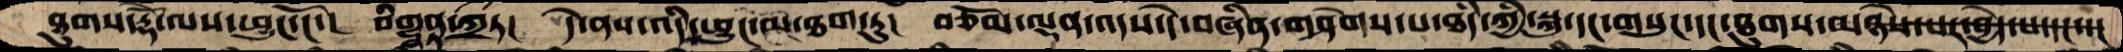ཐུགས་རྡོེ་ལས་ཕྱུང་ངོ་།  བིགྷནྟ་ཀྲྀཏ།  དེ་ནས་འདི་ཕྱུང་མ་ཐག་ཏུ།  བཅོམ་ལྡན་འདས་དེ་བཞིན་གཤེགས་པ་ཐཾད་ཀྱི་སྐུ་དང་གསུང་དང་ཐུགས་མཉེས་པར་བྱེད་པ་དང་་།
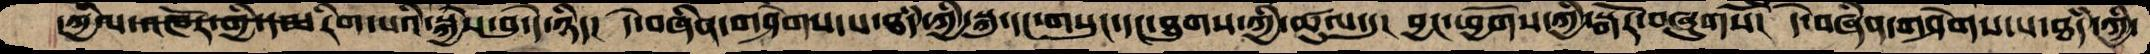དཀྱིལ་འཁོར་གྱི་དམརིག་པའི་སྐྱེས་བུ་དེ་ཉིད།  དེ་བཞིན་གཤེགས་པ་ཐཾད་ཀྱི་སྐུ་དང་གསུང་དང་ཐུགས་ཀྱི་ཚུལ་དུ།  བྱང་ཕྱོགས་ཀྱི་སྒོར་བཞུགསོ་།  དེ་བཞིན་གཤེགས་པ་ཐཾད་ཀྱི་
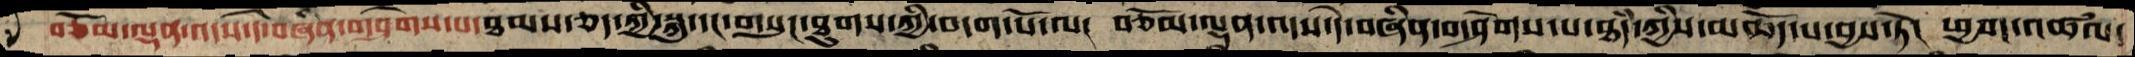བཅོམ་ལྡན་འདས་དེ་བཞིན་གཤེགས་པ་ཐམས་ཅད་ཀྱི་སྐུ་དང་གསུང་ཐུགས་ཀྱི་བདག་པོལ།  བཅོམ་ལྡན་འདས་དེ་བཞིན་གཤེགས་པ་ཐཾད་ཀྱིས་མཆོད་པ་བྱས་ཏེ་།  ཕྱག་འཚལ་
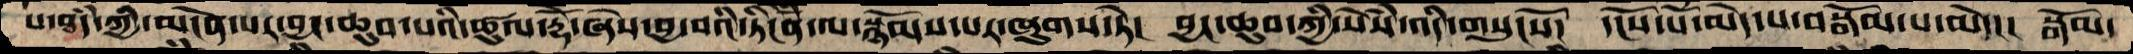པ་ཐཾད་ཀྱི་མངོན་པར་བྱང་ཆུབ་པའི་ཚུལ་རྡོེ་ཞེས་བྱ་བའི་ཏིངེཛིན་ལ་སྙོམས་པར་ཞུགས་ཏེ་།  བྱང་ཆུབ་ཀྱི་སེཾས་འདི་གསུངསོ།  དངོས་པོ་མེད་པ་བསྒོམ་པ་མེད་།  སྒོམ་
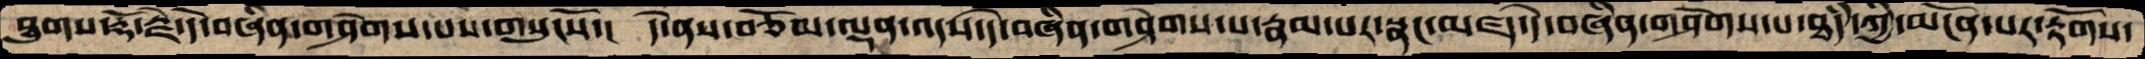ཐུགས་རྡོ་རྗེ་དེ་བཞིན་གཤེགས་པས་གསུངསོ་།  དེ་ནས་བཅོམ་ལྡན་འདས་དེ་བཞིན་གཤེགས་པ་རྣམ་པར་སྣང་མཛད་དེ་བཞིན་གཤེགས་པ་ཐཾད་ཀྱི་མངོན་པར་རྟོགས་
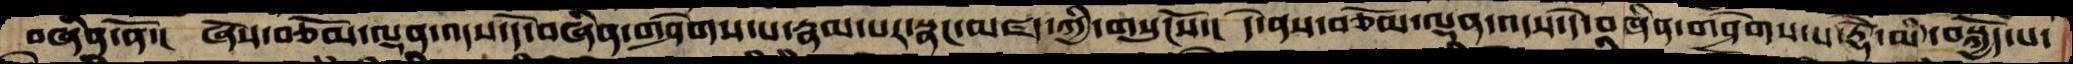བཞིན་ནོ་།  ཞེས་བཅོམ་ལྡན་འདས་དེ་བཞིན་གཤེགས་པ་རྣམ་པར་སྣང་མཛད་ཀྱི་གསུངསོ་།  དེ་ནས་བཅོམ་ལྡན་འདས་དེ་བཞིན་གཤེགས་པ་རྡོེ་མི་བསྐྱོད་པ་
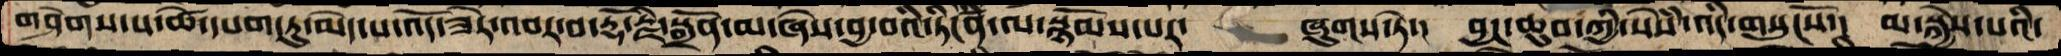གཤེགས་པ་ཚེ་དཔག་ཏུ་མེད་པ་འདོ་ཟེར་འབར་བ་རྡོ་རྗེ་སྒྲོན་མ་ཞེས་བྱ་བའི་ཏིངཛིན་ལ་སྙོམས་པར་   ཞུགས་ཏེ་།  བྱང་ཆུབ་ཀྱི་སེཾས་འདི་གསུངསོ་།  མ་སྐྱེས་པའི་
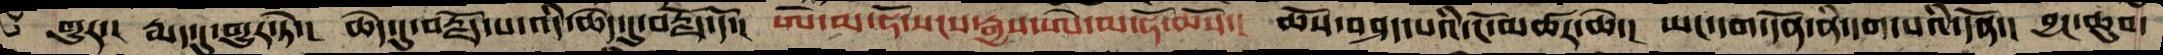གྱུར་། རྨད་དུ་གྱུར་ཏེ་། ཆེད་དུ་བརྗོད་པ་འདི་ཆེད་དུ་བརྗོད་དོ་། ཨེ་མ་ཧོ་སངས་རྒྱས་ཨེ་མ་ཧོ་ཆོས་། ཆོས་བཤད་པའི་ངོ་མཚར་ཆེ་། ཡང་དག་དོན་ནི་དག་པའི་དོན་། བྱང་ཆུབ་
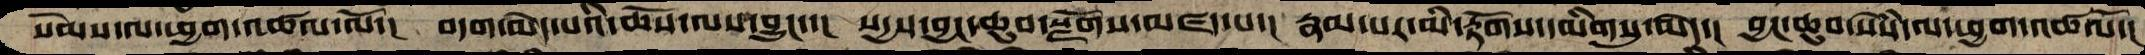སེམས་ལ་ཕྱག་འཚལ་ལོ་།  བདག་མེད་པའི་ཆོས་ལས་བྱུང་་།  སདྱས་བྱང་ཆུབ་སྫོགས་མཛད་པ་།  རྣམ་པར་མི་རྟོགས་དམིགསུ་མེད་།  བྱང་ཆུབ་སེཾས་ལ་ཕྱག་འཚལོ་།
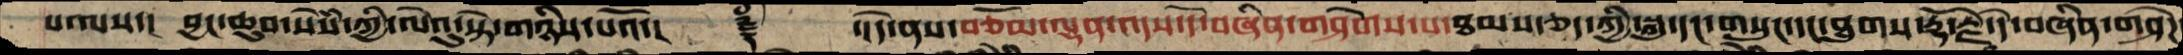པ་ལས་། བྱང་ཆུབ་སེཾས་ཀྱི་ལེའུ་སྟེ་གཉིས་པའོ་།   ༈  ་།དེ་ནས་བཅོམ་ལྡན་འདས་དེ་བཞིན་གཤེགས་པ་ཐམས་ཅད་ཀྱི་སྐུ་དང་གསུང་དང་ཐུགས་རྡོ་རྗེ་དེ་བཞིན་གཤེཌ་
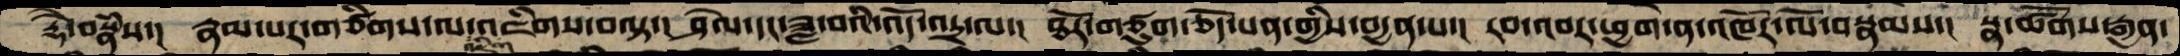རྡོེ་བསྣཾས་།  རྣམ་པར་གཙིགས་ལ་འཇིག་འཇིགས་བལྟ་། ཤེལ་དང་ཟླ་བའི་འོད་འདྲ་ལ་། ཐོར་གཙུག་ཅོད་པན་གྱིས་བདྱན་པ་། རབ་འབར་ཕྱག་ན་འཁོར་ལོ་བསྣམས་། སྣ་ཚོགས་རྒྱན་
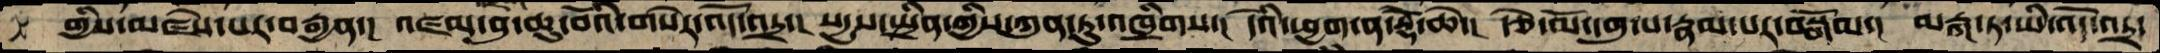གྱིས་མཛེས་པར་བརྒྱན་། འཛམ་བུ་ཆུ་བོའི་གསེར་འོད་འདྲ་། སདྱས་སྤྲིན་གྱིས་ཀུན་ཏུ་འཁྲིགས་།  དེའི་ཕྱག་ན་རྡོེ་ཆེ་། རྩེ་མོ་དགུ་པ་རྣམ་པར་བསྒོམ་། མརྒ་ཏ་ཡི་འོད་འདྲ་
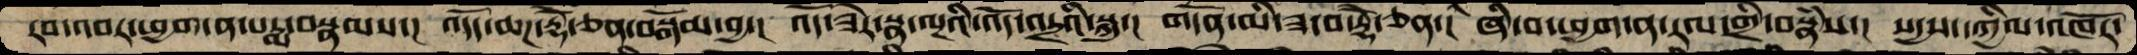རབ་འབར་ཕྱག་ན་པདྨ་བསྣམས་། འདོད་ཆཌ་རྡོེ་ཅན་བསྒོམ་བྱ་། འོད་ཟེར་སྣ་ལྔའི་འོད་འདྲའི་སྐུ་། གདོན་མི་ཟ་བ་རྡོེ་ཅན་། ཞི་བ་ཕྱག་ན་རལ་གྲི་བསྣཾས་། སདྱས་དཀྱིལ་འཁོར་
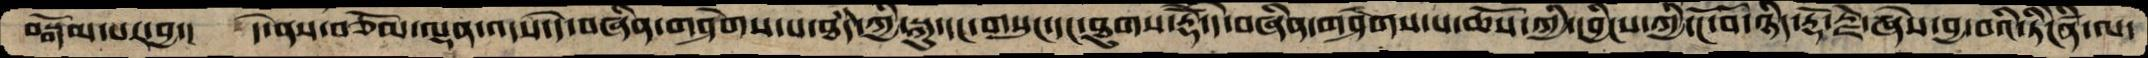བསྒོམ་པར་བྱ་།  དེ་ནས་བཅོམ་ལྡན་འདས་དེ་བཞིན་གཤེགས་པ་་ཐཾད་ཀྱི་སྐུ་དང་གསུང་དང་ཐུགས་རྡོེ་དེ་བཞིན་གཤེགས་པ་ཆོས་ཀྱི་དབྱིངས་ཀྱི་ངོ་བོ་ཉིད་རྡོ་རྗེ་ཞེས་བྱ་བའི་ཏིངེཛིན་ལ་
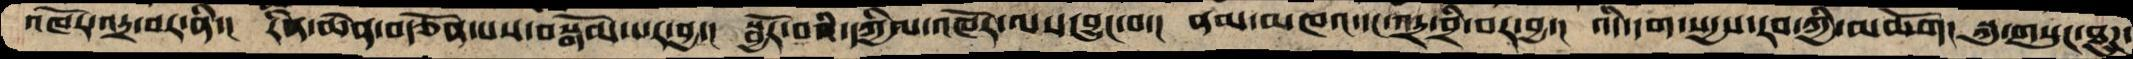འཁོར་འདྲ་བར་ནི་།  རིན་ཆེན་བརྩོན་པས་བསྒོམ་པར་བྱ་།  སྦྱོར་བའི་དཀྱིལ་འཁོར་ལས་བྱུང་བ་།  ནམ་མཁའ་དང་འདྲ་བྲི་བར་བྱ་།  འདི་དག་སདྱས་རབ་དཀྱི་མཆོག།  སྐུ་གསུང་ཐུཌ་
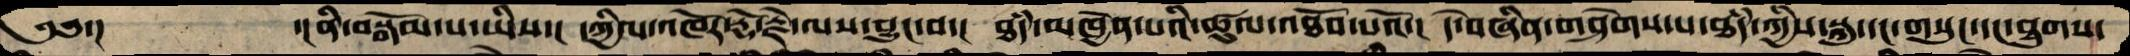༄༅་།    ་།ནི་བསྒོམ་པ་ཡིས་།  དཀྱིལ་འཁོར་རྡོ་རྗེ་ལས་བྱུང་བ་།  ཐཾད་མཁྱེན་པའི་ཚུལ་འཐོབ་པའོ་།  དེ་བཞིན་གཤེགས་པ་ཐཾད་ཀྱིས་སྐུང་དང་གསུང་དང་ཐུགས་
